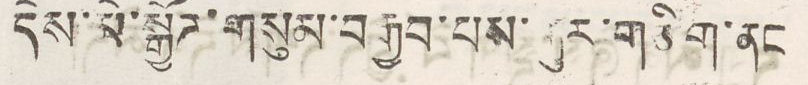དེས་མེ་སྒྱོཌ་གསུམ་བརྒྱབ་པས་གུར་གཅིག་ནང
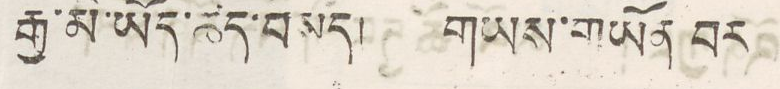རྒྱ་མི་ཡོད་ཚད་བསད། གཡས་གཡོན བར
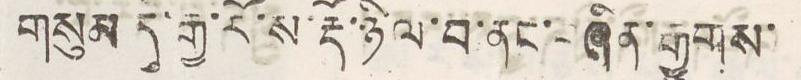གསུམ དུ་རྒྱ་རོ་ས་རྡོ་ཉིལ་བ་ནང་བཞིན་རྒྱུགས་
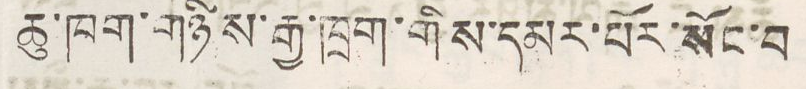ཆུ་ཁག་གཉིས་རྒྱ་ཁྲག་གིས་དམར་པོར་སོང་བ
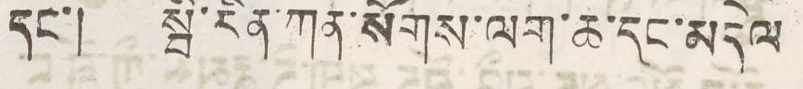དང་། སྦི་རིན་ཀན་སོགས་ལག་ཆ་དང་མདེལ
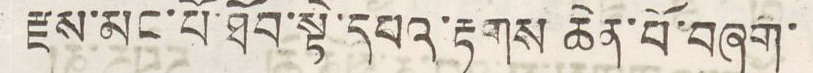རྫས་མང་པོ་ཐོབ་སྟེ་དཔའ་རྟགས ཆེན་པོ་བཞག་
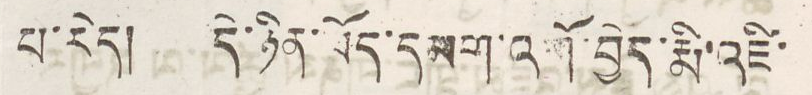པ་རེད། དེ་ཉིད་བོད་དམག་འགོ་བྱེད་རྨི་འཛི་
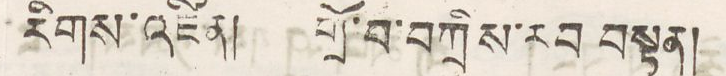རིགས་འཛིན། གྲོ་བ་བཀྲིས་རབ བསྟན།
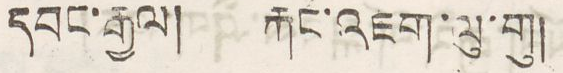དབང་རྒྱལ། རྐང་འཇག་ལུ་གུ།
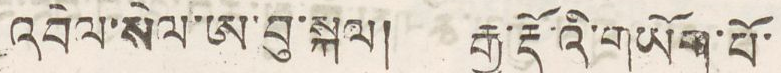འབེལ་སེལ་ཨ་བུ་སྐལ། རྒྱ་རྡོ་འི་གཡོག་པོ་
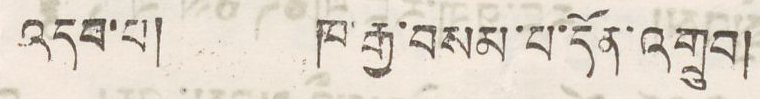འདབ་པ། ཁ་རྒྱ་བསམ་པ་དོན་འགྲུབ།
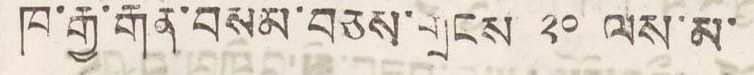ཁ་རྒྱ་རྒན་བསམ་བཅས་གྲངས ༢༠ ལས་མ་
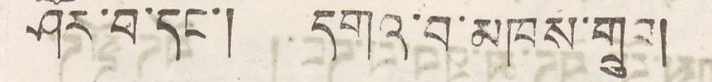ཤོར་བ་དང་། དགའ་བ་མཁས་གྲུབ།
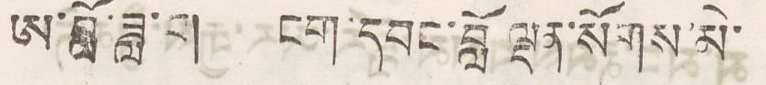ཨ་བློ་ཟླ་བ། ངག་དབང་བློ ལྡན་སོགས་མེ་
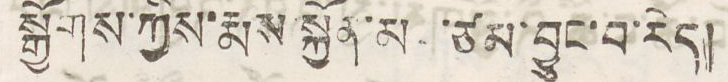སྒྱོགས་ཀྱིས་རྨས་སྐྱོན་མ ་ཙམ་བྱུང་བ་རེད།
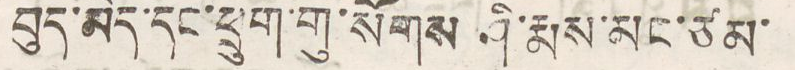བུད་མེད་དང་ཕྲུག་གུ་སོགས ཤི་རྨས་མང་ཙམ་
